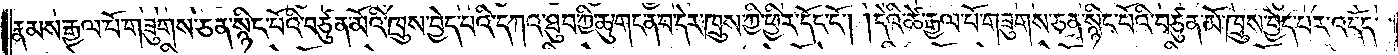རྣམས་རྒྱལ་པོ་གཟུགས་ཅན་སྙིང་པོའི་བཙུན་མོའི་ཁྲུས་བྱེད་པའི་དཀའ་ཐུབ་ཀྱི་ཆུ་གང་ན་བ་དེར་ཁྲུས་ཀྱི་ཕྱིར་དོང་ངོ༌། །དེའི་ཚེ་རྒྱལ་པོ་གཟུགས་ཅན་སྙིང་པོའི་བཙུན་མོ་ཁྲུས་བྱེད་པར་འདོད་
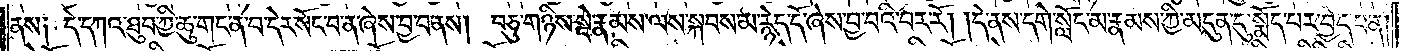ནས༑ དེ་དཀའ་ཐུབ་ཀྱི་ཆུ་གང་ན་བ་དེར་སོང་བ་ན་ཞེས་བྱ་བ་ནས། བཅུ་གཉིས་སྡེ་རྣམས་ལས་སྐབས་མ་རྙེད་དོ་ཞེས་བྱ་བའི་བར་རོ། །དེ་ནས་དགེ་སློང་མ་རྣམས་ཀྱི་མདུན་དུ་སྨོད་པར་བྱེད་པ་ན།
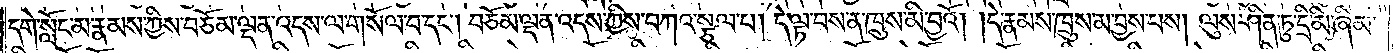དགེ་སློང་མ་རྣམས་ཀྱིས་བཅོམ་ལྡན་འདས་ལ་གསོལ་བ་དང༌། བཅོམ་ལྡན་འདས་ཀྱིས་བཀའ་སྩལ་པ། དེ་ལྟ་བས་ན་ཁྲུས་མི་བྱའོ། །དེ་རྣམས་ཁྲུས་མ་བྱས་པས། ལུས་ཤིན་ཏུ་དྲི་མི་ཞིམ་
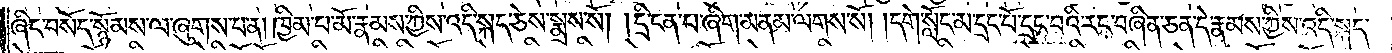ཞིང་བསོད་སྙོམས་ལ་ཞུགས་པ་ན། ཁྱིམ་པ་མོ་རྣམས་ཀྱིས་འདི་སྐད་ཅེས་སྨྲས་སོ། །དྲི་ངན་པ་ཞིག་མནམ་ལགས་སོ། །དགེ་སློང་མ་དྲང་པོ་དྲང་བའི་རང་བཞིན་ཅན་དེ་རྣམས་ཀྱིས་འདི་སྐད་
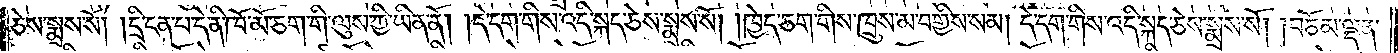ཅེས་སྨྲས་སོ། །དྲི་ངན་པ་དེ་ནི་ཁོ་མོ་ཅག་གི་ལུས་ཀྱི་ཡིན་ནོ། །དེ་དག་གིས་འདི་སྐད་ཅེས་སྨྲས་སོ། །ཁྱེད་ཅག་གིས་ཁྲུས་མ་བགྱིས་སམ། དེ་དག་གིས་འདི་སྐད་ཅེས་སྨྲས་སོ། །བཅོམ་ལྡན་
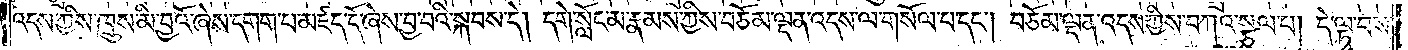འདས་ཀྱིས་ཁྲུས་མི་བྱའོ་ཞེས་དགག་པ་མཛད་དོ་ཞེས་བྱ་བའི་སྐབས་དེ། དགེ་སློང་མ་རྣམས་ཀྱིས་བཅོམ་ལྡན་འདས་ལ་གསོལ་པ་དང༌། བཅོམ་ལྡན་འདས་ཀྱིས་བཀའ་སྩལ་པ། དེ་ལྟ་བས་
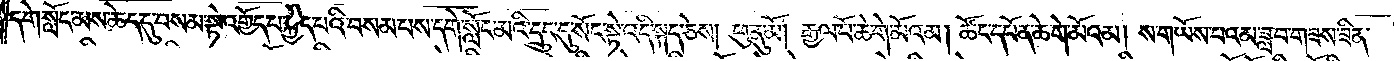དགེ་སློང་མས་ཆེད་དུ་བསམ་སྟེ་འགྱོད་པ་སྐྱེད་པའི་བསམ་པས་དགེ་སློང་མའི་དྲུང་དུ་སོང་སྟེ་འདི་སྐད་ཅེས། ཕུ་ནུ་མོ། རྒྱལ་པོ་ཆེ་གེ་མོའམ། ཚོང་དཔོན་ཆེ་གེ་མོའམ། ས་གཡོས་པའམ་ཟླ་བ་གཟས་ཟིན་
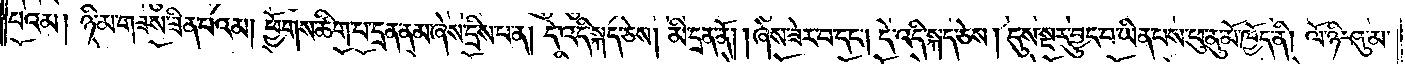པའམ། ཉི་མ་གཟས་ཟིན་པའམ། ཕྱོགས་ཚིག་པ་དྲན་ནམ་ཞེས་དྲིས་པ་ན། དེ་འདི་སྐད་ཅེས། མི་དྲན་ནོ། །ཞེས་ཟེར་བ་དང༌། དེ་འདི་སྐད་ཅེས། དུས་སྔར་བྱུང་བ་ཡིན་པས་ཕུ་ནུ་མོ་ཁྱོད་ནི། ལོ་ཉི་ཤུ་མ་
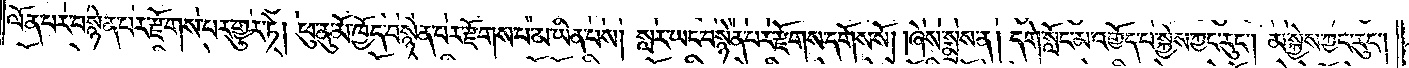ལོན་པར་བསྙེན་པར་རྫོགས་པར་གྱུར་ཏེ། ཕུ་ནུ་མོ་ཁྱོད་བསྙེན་པར་རྫོགས་པ་མ་ཡིན་པས། སླར་ཡང་བསྙེན་པར་རྫོགས་དགོས་སོ། །ཞེས་སྨྲས་ནས། དགེ་སློང་མ་འགྱོད་པ་སྐྱེས་ཀྱང་རུང༌། མ་སྐྱེས་ཀྱང་རུང༌།
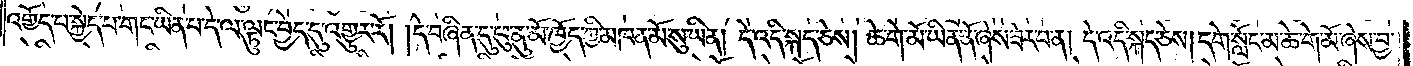འགྱོད་པ་སྐྱེད་པ་གང་ཡིན་པ་དེ་ལ་ལྟུང་བྱེད་དུ་འགྱུར་རོ། །དེ་བཞིན་དུ་ཕུ་ནུ་མོ་ཁྱོད་ཀྱི་མཁན་མོ་སུ་ཡིན། དེ་འདི་སྐད་ཅེས། ཆེ་གེ་མོ་ཡིན་ནོ་ཞེས་ཟེར་བ་ན། དེ་འདི་སྐད་ཅེས། དགེ་སློང་མ་ཆེ་གེ་མོ་ཞེས་བྱ་
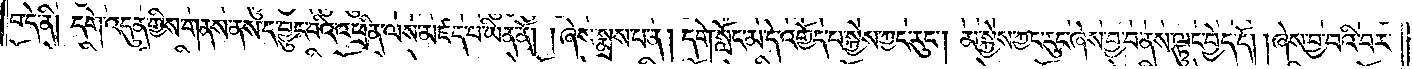བ་དེ་ནི། དགེ་འདུན་གྱིས་གནས་ནས་ད་བྱུང་བའི་འཕྲིན་ལས་མཛད་པ་ཡིན་ནོ། །ཞེས་སྨྲས་པ་ན། དགེ་སློང་མ་དེ་འགྱོད་པ་སྐྱེས་ཀྱང་རུང༌། མ་སྐྱེས་ཀྱང་རུང་ཞེས་བྱ་བ་ནས་ལྟུང་བྱེད་དོ། །ཞེས་བྱ་བའི་བར་
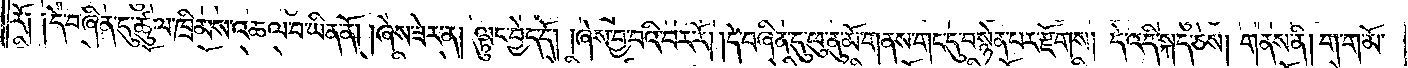རོ༑ ༑དེ་བཞིན་དུ་ཚུལ་ཁྲིམས་འཆལ་བ་ཡིན་ནོ། །ཞེས་ཟེར་ན། ལྟུང་བྱེད་དོ། །ཞེས་བྱ་བའི་བར་རོ། །དེ་བཞིན་དུ་ཕུ་ནུ་མོ་གནས་གང་དུ་བསྙེན་པར་རྫོགས། དེ་འདི་སྐད་ཅེས། གནས་ནི། ག་ག་མོ་
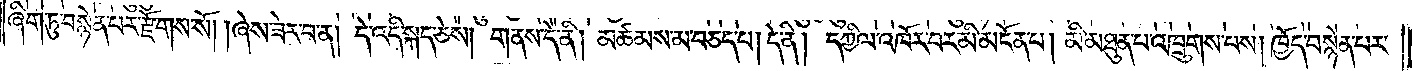ཞིག་ཏུ་བསྙེན་པར་རྫོགས་སོ། །ཞེས་ཟེར་བ་ན། དེ་འདི་སྐད་ཅེས། གནས་དེ་ནི། མཚམས་མ་བཅད་པ། དེ་ནི། དཀྱིལ་འཁོར་བར་མི་མངོན་པ། མི་མཐུན་པ་འཁྲུགས་པས། ཁྱོད་བསྙེན་པར་
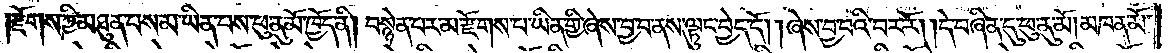རྫོགས་ཀྱི་མཐུན་པས་མ་ཡིན་པས་ཕུ་ནུ་མོ་ཁྱོད་ནི། བསྙེན་པར་མ་རྫོགས་པ་ཡིན་གྱི་ཞེས་བྱ་བ་ནས་ལྟུང་བྱེད་དོ། །ཞེས་བྱ་བའི་བར་རོ། །དེ་བཞིན་དུ་ཕུ་ནུ་མོ། མཁན་མོ་
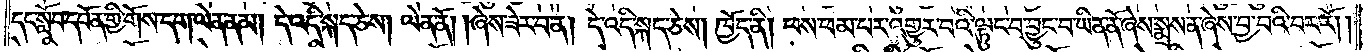དང་སློབ་དཔོན་གྱི་གོས་དག་ལེན་ནམ། དེ་འདི་སྐད་ཅེས། ལེན་ནོ། །ཞེས་ཟེར་བ་ན། དེ་འདི་སྐད་ཅེས། ཁྱོད་ནི། ཕས་ཕམ་པར་འགྱུར་བའི་ལྟུང་བ་བྱུང་བ་ཡིན་ནོ་ཞེས་སྨྲས་ན་ཞེས་བྱ་བའི་བར་རོ། །
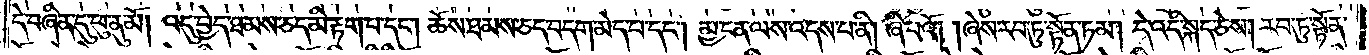དེ་བཞིན་དུ་ཕུ་ནུ་མོ། འདུ་བྱེད་ཐམས་ཅད་མི་རྟག་པ་དང༌། ཆོས་ཐམས་ཅད་བདག་མེད་པ་དང༌། མྱ་ངན་ལས་འདས་པ་ནི། ཞི་བའོ། །ཞེས་རབ་ཏུ་སྟོན་ཏམ། དེ་འདི་སྐད་ཅེས། རབ་ཏུ་སྟོན་
